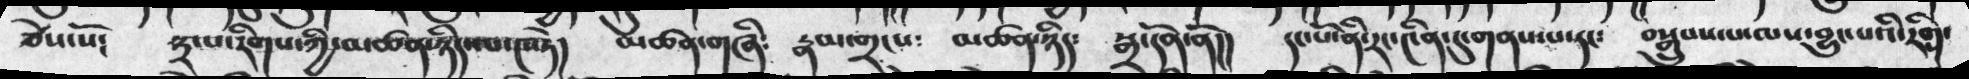ཅེས་སོ༴  ༣་པ་རིགས་ཀྱི་མཚན་ཉིད་ལ་༤་ཏེ།  མཚན་གཞི༴  རྣམ་གྲངས༴  མཚན་ཉིད༴  སྒྲ་དོན་ནོ།།  དང་པོ་ནི་རང་༤ིན་དུ་གནས་པ་དང༴  བསྒྲུབས་པ་ལས་བྱུང་པའི་རིག་
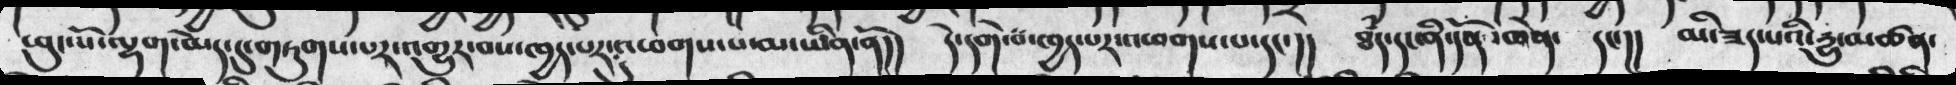ཕུང་པོ་ལྷག་མེད་དུ་གཏུགས་པར་འགྱུར་བས་ཁྱད་པར་དུ་འཕགས་པ་མ་ཡིན་ནོ།།   དེ་དགེ་བ་ཁྱད་པར་འཕགས་པ་དང་།།   ཐཾད་དང་ནི་དོན་ཆེན་ དང་།།   མི་ཟད་པའི་རྒྱུ་མཚན་
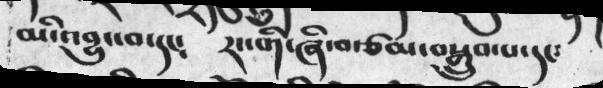མི་འབྱུང་བ་དང༴  རང་གི་ཞི་བ་ཙམ་བསྒྲུབ་པ་དང༴
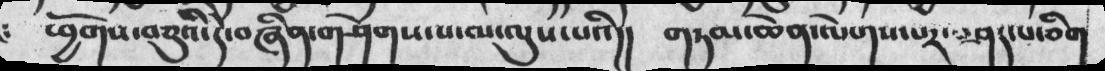ཕྱོགས་བཅུའི་དེ་བཞིན་གཤེགས་པ་མ་ལུས་པའི།།  གཏམ་ཆེན་ལེགས་པར་བཤད་པ་ཅིག
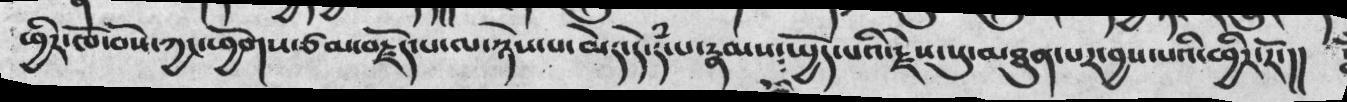ཕྱིར་ཁོ་བོས་ཀྱང་ཕྱོགས་ཙམ་བརྗོད་པ་ལ་ཉེས་པ་མེད་དེ་དཾ་པ་རྣམས་སྤྱོད་པའི་རྗེས་སུ་མཐུན་པར་བྱས་པའི་ཕྱིར་རོ་།།
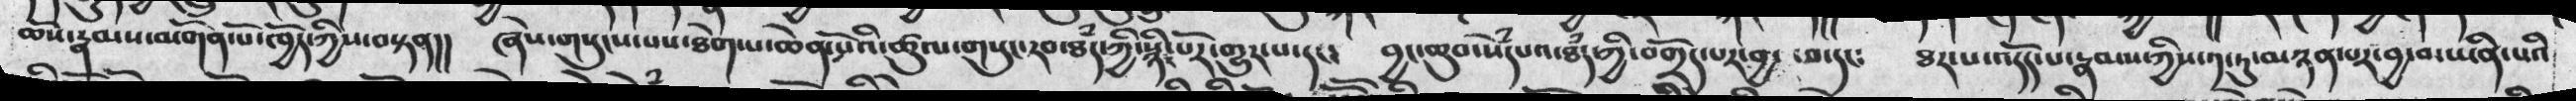ཆོས་རྣམས་མགོན་པོ་ཁྱོད་ཀྱིས་བསྟན།། ཞེས་གསུངས་པས་ཐེག་པ་ཆེན་པོའི་ཚུལ་གསུང་རབ་ཐཾད་ཀྱི་སསྙིང་པོར་གྱུར་པ་དང༴ བྱང་ཆུབ་སེཾདཔའ་ཐཾད་ཀྱི་བགྲོད་པར་བྱ་བ་དང༴ ཐར་པ་འདོད་པ་རྣམས་ཀྱིས་༡་ཏུ་མཉན་པར་བྱ་བ་ཡིན་པའི
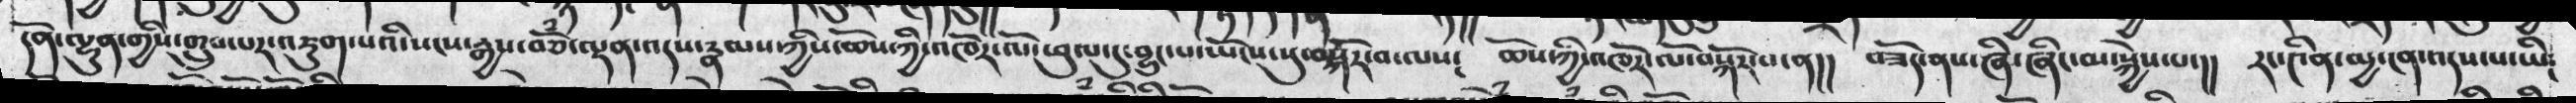དོན་ལྷུན་གྱིས་གྲུབ་པར་འཇུག་པའི་སངས་རྒྱས་བཅོཾ་ལྡན་འདས་རྣམས་ཀྱི་ཆོས་ཀྱི་འཁོར་ལོ་ཕུལ་དུ་བྱུང་པ་ཡོངས་སུ་བསྐོར་བ་ལས༴  ཆོས་ཀྱི་འཁོར་ལོ་བསྐོར་བ་ན།།  བཟོད་ནས་ཞི་ཞིང་མ་སྐྱེས་པ་།།  རང་༤ིན་མྱ་ངན་འདས་པ་ཡི༴
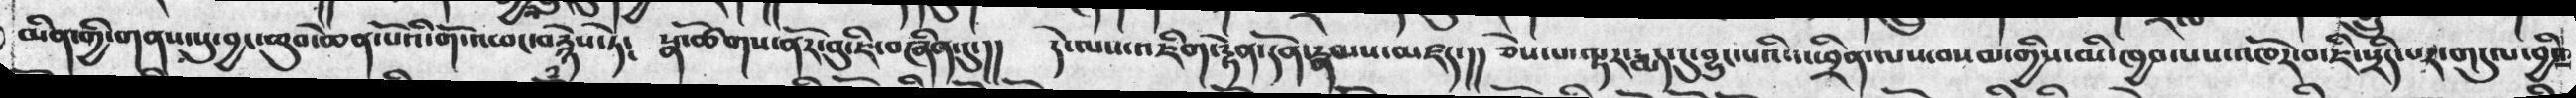མིན་གྱི་གནས་སུ་བྱང་ཆུབ་ཆེན་པོའི་གོ་འཕང་བརྙེས་ཏེ༴  སྣ་ཚོགས་ནོར་བུ་ཇི་བཞིན་དུ་།།  དེ་ལས་འཇིག་རྟེན་དོན་རྣམས་མཛད་།། ཅེས་པ་ལྟར་རྨད་དུ་བྱུང་པའི་འཕྲིན་ལས་བསམ་གྱིས་མི་ཁྱབ་པས་འཁོར་བ་ཇི་སྲིད་པར་གདུལ་བྱའི
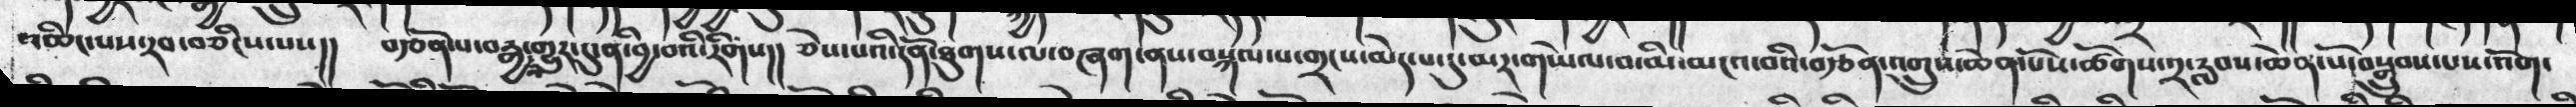འཆིང་པས་རབ་བཅིང་པས།།  བརྩོན་པ་བརྒྱ་གྱུར་དུ་ན་བྱི་བའི་རིགས།། ཅེས་པའི་དོན་ཐུགས་ལ་བཞག་ནས་བསྐལ་པ་གྲངས་མེད་པ་དུ་མར་གཡེལ་བ་མི་མངའ་བའི་བརྩོན་འགྲུས་ཆེན་པོས་ཚོགས་༢་རླབས་ཆེན་པོ་བསྒྲུབས་པས་འོག་
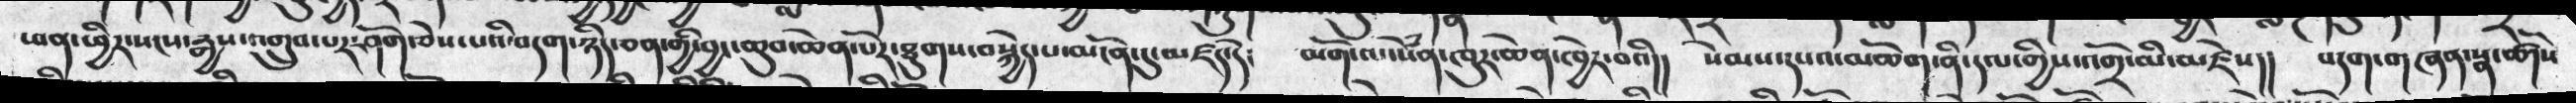ཕན་ཕྱིར་སངས་རྒྱས་འགྲུབ་པར་ཤོག་ཅེས་པའི་བདག་ཉིད་ཅན་གྱི་བྱང་ཆུབ་ཆེན་པོར་ཐུགས་བསྐྱེད་པ་མངོན་དུ་མཛད་དེ༴  མགོ་ལ་སེཾན་ཁུར་ཆེན་ཁྱེར་བའི།། སེམས་དཔའ་མཆོག་ནི་དལ་གྱིས་འགྲོ་མི་མཛེས།།  བདག་གཞན་སྣ་ཚོགས
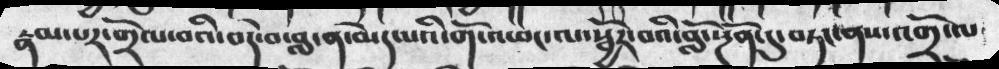རྣམ་པར་གྲོལ་བའི་བདེ་བ་བླ་ན་མེད་པའི་གོ་འཕང་ལ་སྦྱོར་བའི་བློ་སྔོན་དུ་བཏང་ནས་འགྲོ་ལ
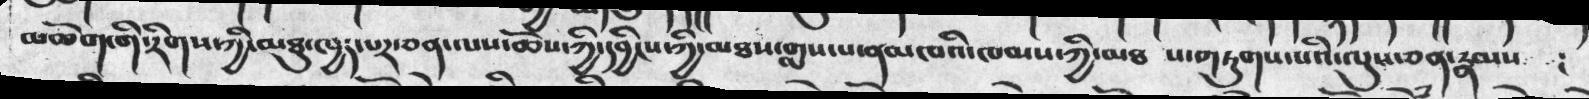མཆོག་གི་རིགས་ཀྱི་མཐུ་ཁྱད་པར་ཅན་ལས་ཆོས་ཀྱི་དབྱིངས་ཀྱི་མཐས་གླས་པ་ནམཁའི་ཁམས་ཀྱི་མཐ ས་གཏུགས་པའི་ལུས་ཅན་རྣམས ༴
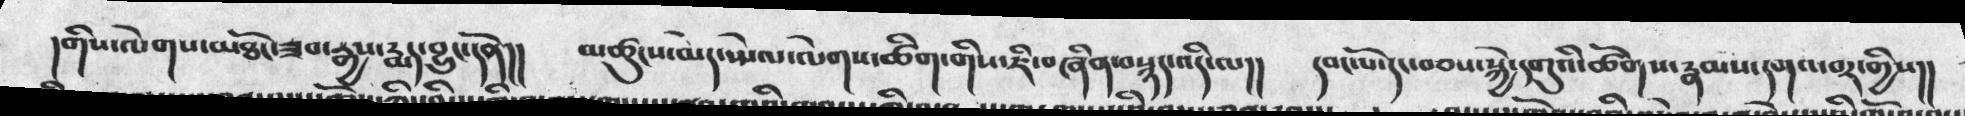།གིས་ལེགས་མཐོང་ཟབ་རྒྱས་རྨད་བྱུང་དོན།།  མཚུངས་མེད་སྤེལ་ལེགས་ཚིག་གིས་ཇི་བཞིན་བསྙད་འདི་ལ།།  དབང་པོ་དང་བཅས་སྐྱེ་དགུའི་ཚོགས་རྣམས་དགའ་བར་གྱིས།།
